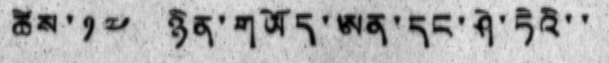ཚེས་ ༡༧ ཉིན་གཡོད་ཨན་དང་ཤེ་ཏེའི་་
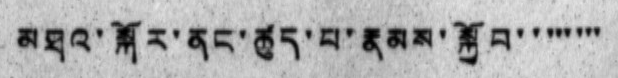མཐའ་སྐོར་ནང་ཚུད་པ་རྣམས་སྐྱོབ་ ་་་་་་་
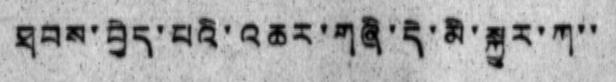ཐབས་བྱེད་པའི་འཆར་གཞི་དེ་མི་སྐྱུར་ཀ་་
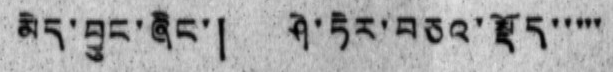མེད་བྱུང་ཞིང་། ཤེ་ཏེར་བཅའ་སྡོད་་་་་
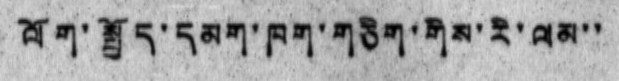ལོག་སྤྱོད་དམག་ཁག་གཅིག་གིས་རི་ལམ་་
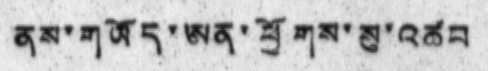ནས་གཡོད་ཨན་ཕྱོགས་སུ་འཚབ
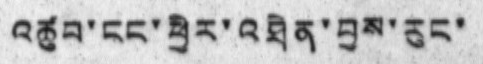འཚུབ་ངང་ཕྱིར་འཐིན་བྱས་རུང་
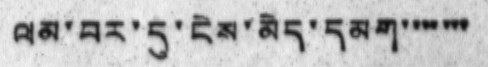ལམ་བར་དུ་ངེས་མེད་དམག་་་་་་་
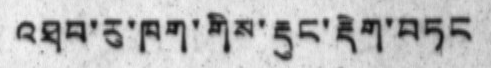འཐབ་རུ་ཁག་གིས་རྡུང་རྡེག་བཏང
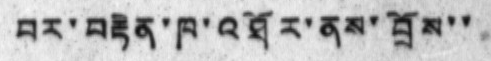བར་བརྟེན་ཁ་འཐོར་ནས་བྲོས་་
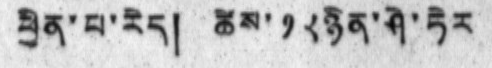ཕྱིན་པ་རེད། ཚེས་ ༡༨ཉིན་ཤེ་ཏེར
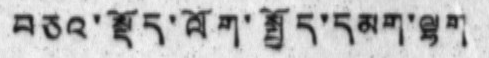བཅའ་སྡོད་ལོག་སྤྱོད་དམག་ལྷག
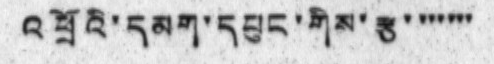འཕྲོའི་དམག་དཔུང་གིས་རྩ་ ་་་་་་
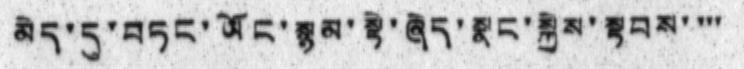མེད་དུ་བཏང་ཡོང་སྙམ་སྟེ་ཞེད་སྣང་སྐྱེས་སྟབས་ ་་་
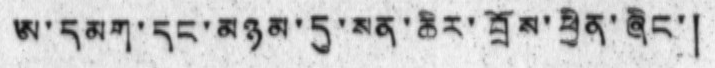ཨ་དམག་དང་མཉམ་དུ་སན་ཆིར་བྲོས་ཕྱིན་ཞིང་།
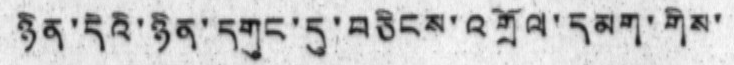ཉིན་དེའི་ཉིན་དགུང་དུ་བཅིངས་འགྲོལ་དམག་གིས་
